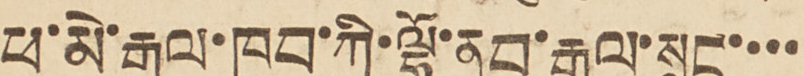ཕ་མེ་རྒྱལ་ཁབ་ཀྱི་ལྷོ་ནུབ་རྒྱལ་སྲུང་་་་
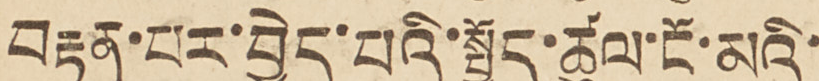བརྟན་པར་བྱེད་པའི་སྤྱོད་ཚུལ་ངོ་མའི་
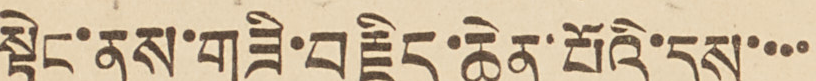སྟེང་ནས་གཟི་བརྗིད་ཆེན་པོའི་དུས་་་་
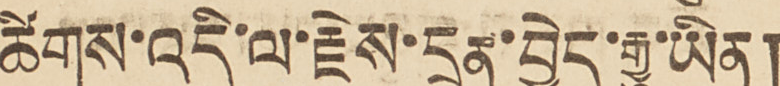ཚིགས་འདི་ལ་རྗེས་དྲན་བྱེད་རྒྱུ་ཡིན།
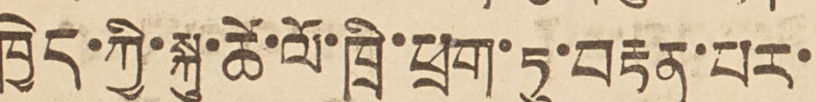ཁྱེད་ཀྱི་སྐུ་ཚེ་ལོ་ཁྲི་ཕྲག་ཏུ་བརྟན་པར་
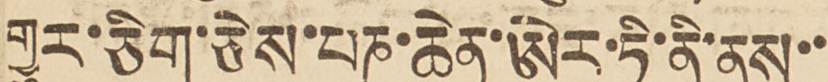གྱུར་ཅིག་ཅེས་པཎ་ཆེན་ཨེར་ཏི་ནི་ནས་་
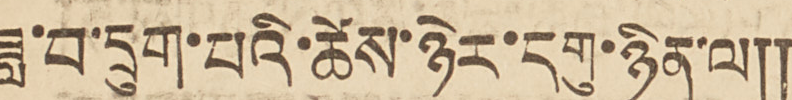ཟླ་བ་དྲུག་པའི་ཚེས་ཉེར་དགུ་ཉན་ལ༎
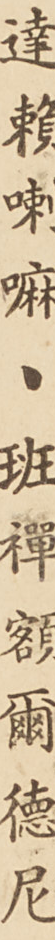達賴喇嘛、班禪額爾德尼
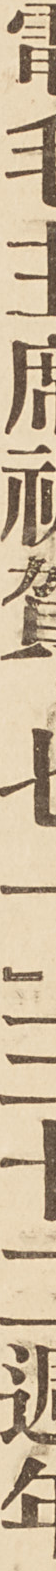電毛主席祝賀「七一」三十二週年
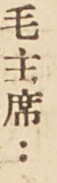毛主席：
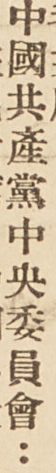中國共產黨中央委員會：
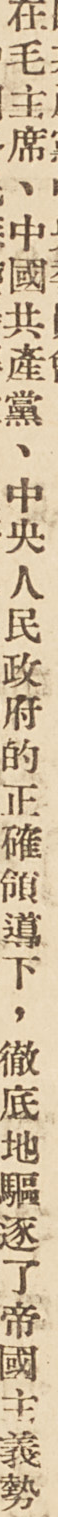在毛主席、中國共產黨、中央人民政府的正確領導下，徹底地驅逐了帝國主義勢
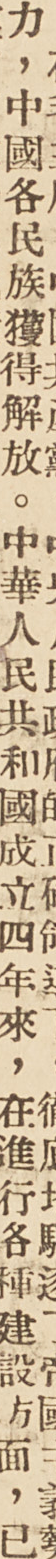力，中國各民族獲得解放。中華人民共和國成立四年來，在進行各種建設方面，已
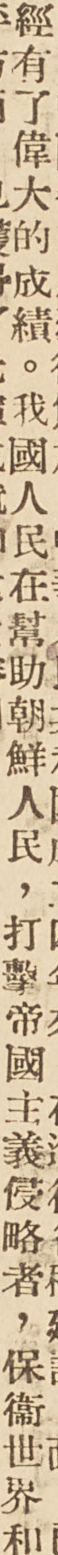經有了偉大的成績。我國人民在幫助朝鮮人民，打擊帝國主義侵略者，保衛世界和
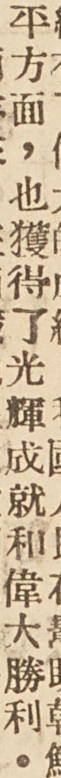平方面，也獲得了光輝成就和偉大勝利。
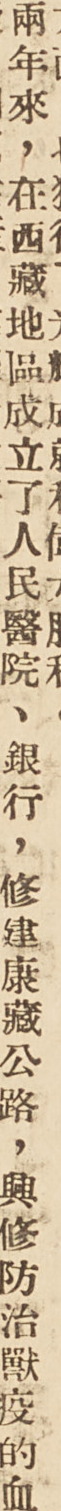兩年來，在西藏地區成立了人民醫院、銀行，修建康藏公路，興修防治獸疫的血
